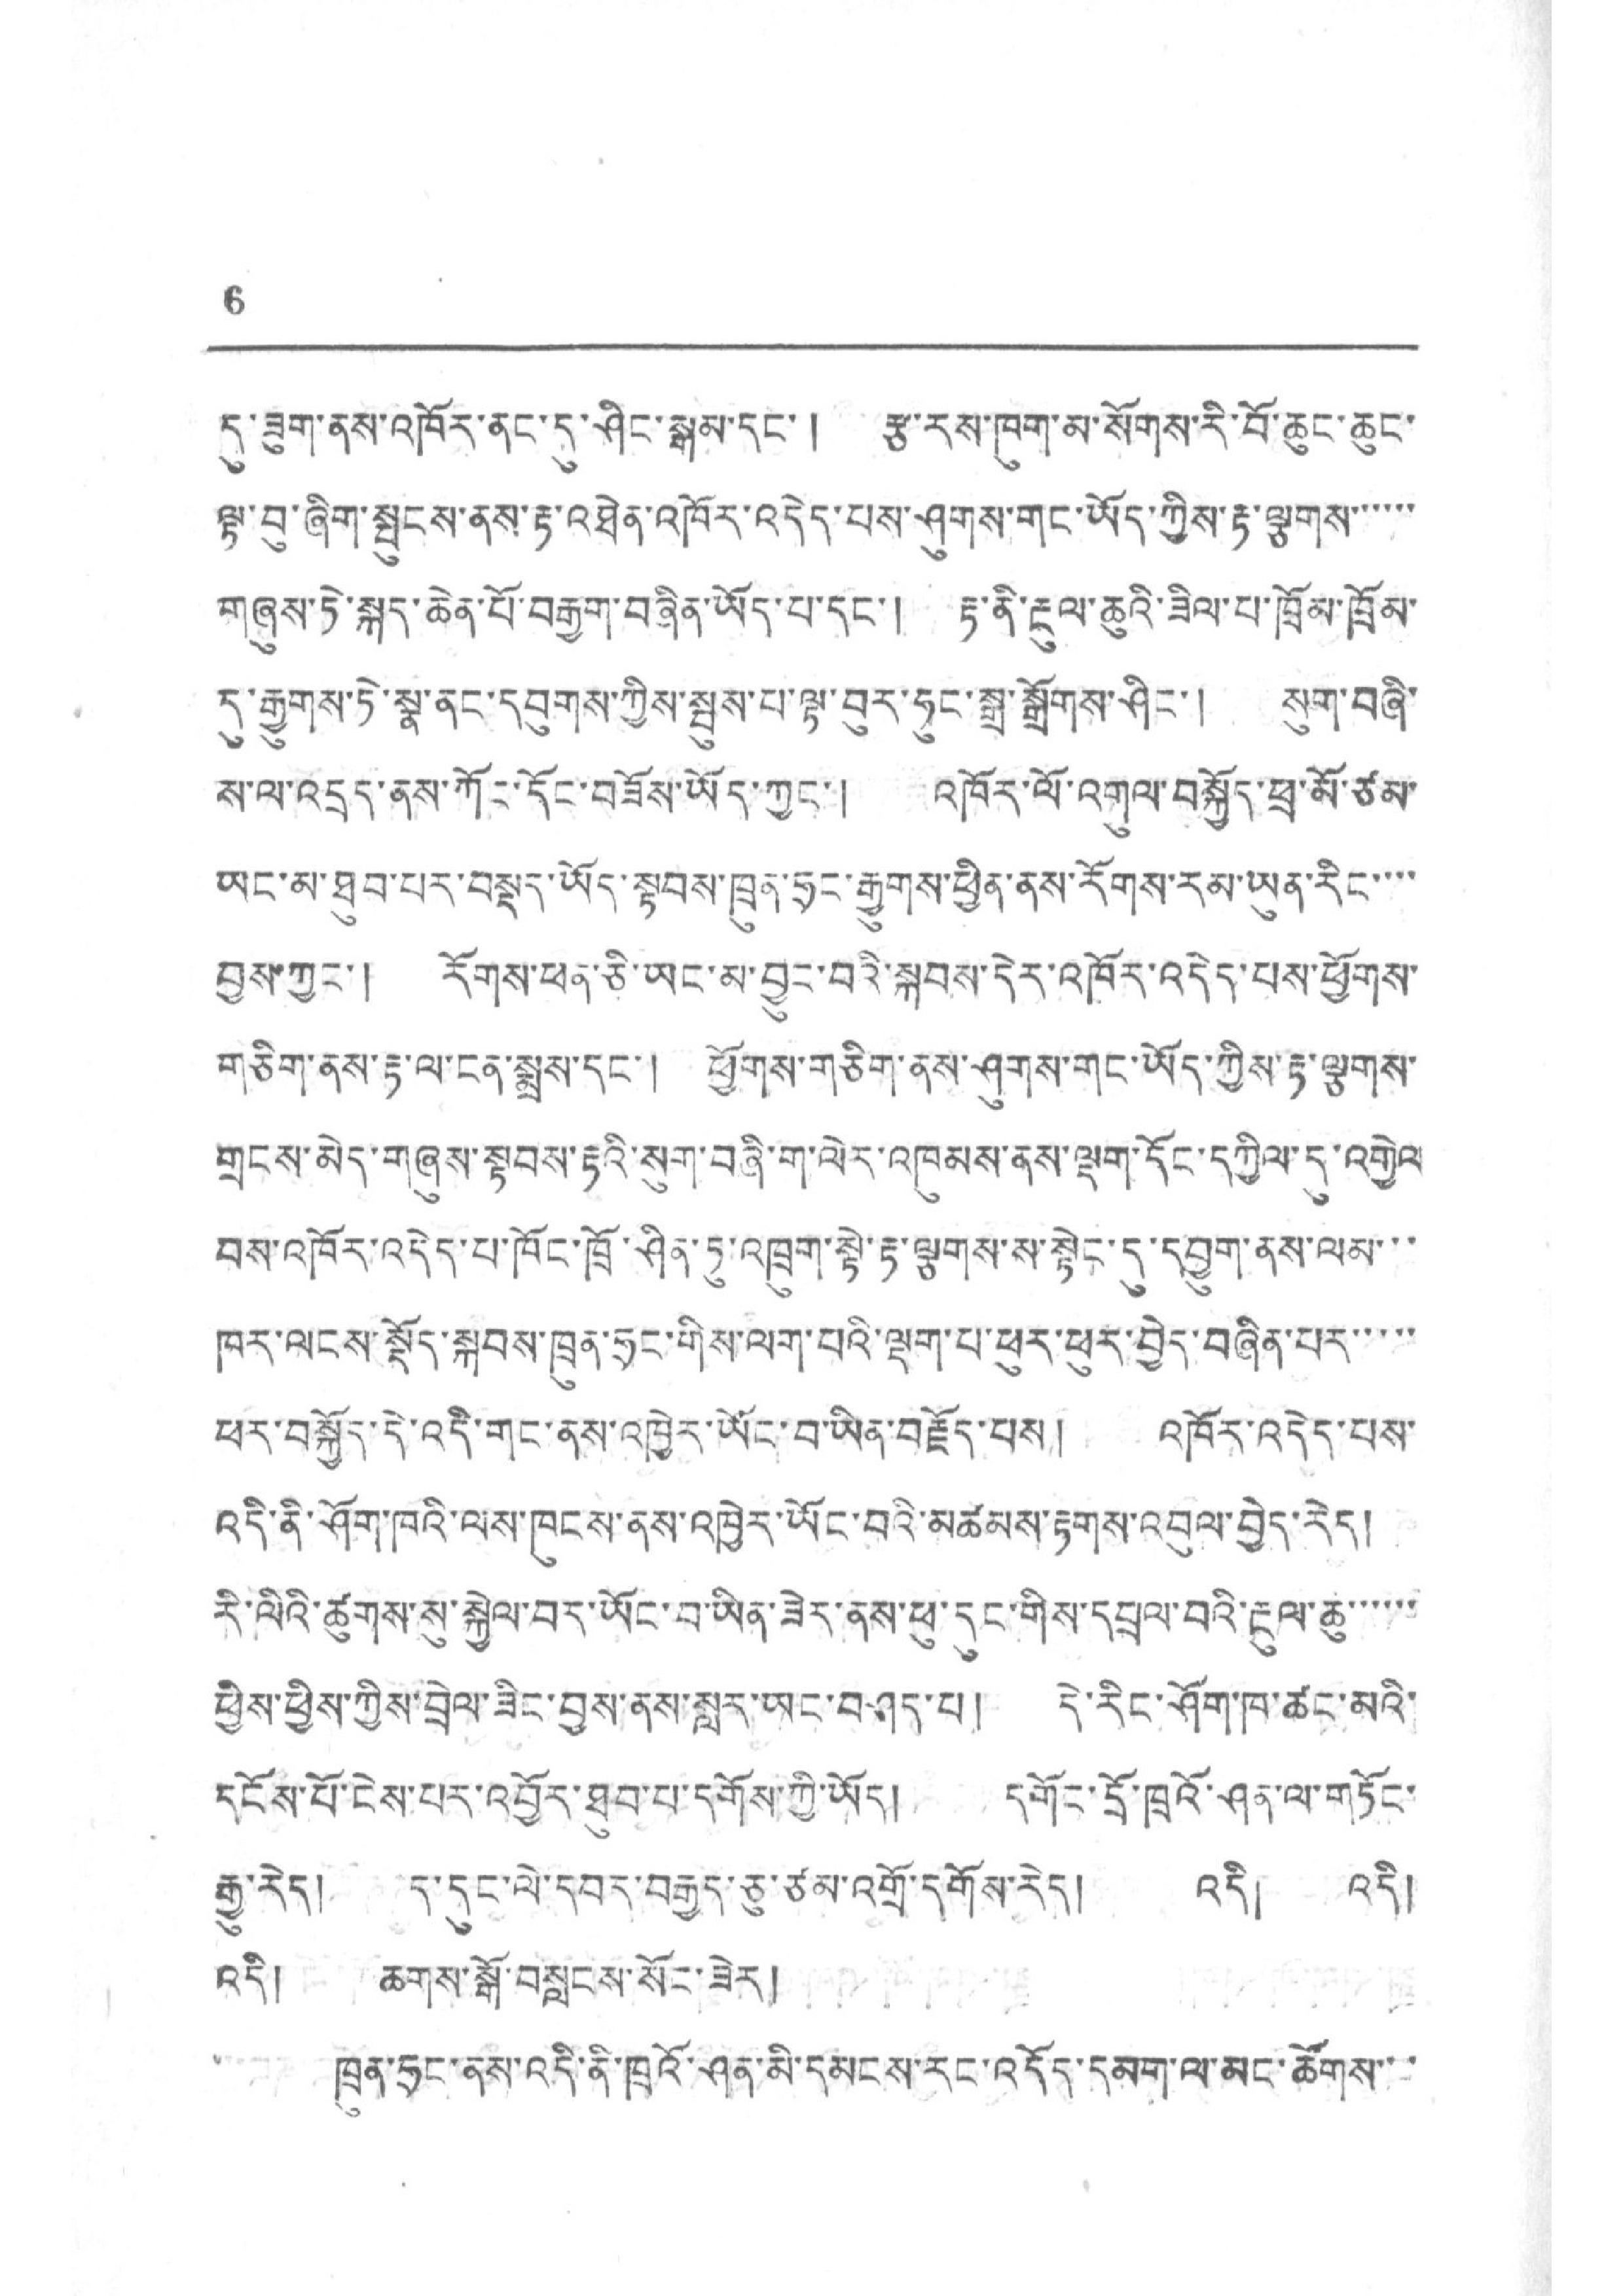6
དུ་ཟུག་ནས་འཁོར་ནང་དུ་ཤིང་སྒམ་དང་། རྩ་རས་ཁག་མ་སོགས་རི་བོ་ཆུང་ཆུང་
ལྟ་བུ་ཞིག་སྤུངས་ནས་རྟ་འཐེན་འཁོར་འདེད་པས་ཤུགས་གང་ཡོད་ཀྱིས་རྟ་ལྕགས་་་་་་
གཞུས་ཏེ་སྐད་ཆེན་པོ་བརྒྱག་བཞིན་ཡོད་པ་དང་། རྟ་ནི་རྔུལ་ཆུའི་ཟིལ་པ་ཁྲོམ་ཁྲོམ་
དུ་རྒྱུགས་ཏེ་སྣ་ནང་དབུགས་ཀྱིས་སྦུས་པ་ལྟ་བུར་ཧུང་སྒྲ་སྒྲོགས་ཤིང་། སུག་བཞི་
ས་ལ་འདྲད་ནས་ཀོང་དོང་བཟོས་ཡོད་ཀྱང་། འཁོར་ལོ་འགུལ་བསྐྱོད་ཕྲ་མོ་ཙམ་
ཡང་མ་ཐུབ་པར་བསྡུར་ཡོད་སྟབས་ཁྲུན་ཧྲང་རྒྱུགས་ཕྱིན་ནས་རོགས་རམ་ཡུན་རིང་་་་
བྱས་ཀྱང་། རོགས་ཕན་ཅི་ཡང་མ་བྱུང་བའི་སྐབས་དེར་འཁོར་འདེད་པས་ཕྱོགས་
གཅིག་ནས་རྟ་ལ་ངན་སྨྲས་དང་། ཕྱོགས་གཅིག་ནས་ཤུགས་གང་ཡོད་ཀྱིས་རྟ་ལྕགས་
གྲངས་མེད་གཞུས་སྟབས་རྟའི་སུག་བཞི་ག་ལེར་འཁུམས་ནས་ལྡག་དོང་དཀྱིལ་དུ་འགྱེལ་
བས་འཁོར་འདེད་པ་ཁོང་ཁྲོ་ཤིན་ཏུ་འཁྲུག་སྟེ་རྟ་ལྕགས་ས་སྟེང་དུ་དབྱུག་ནས་ལམ་་་
ཁར་ལངས་སྟོད་སྐབས་ཁྲུན་ཧྲང་གིས་ལག་བའི་ལྡག་པ་ཕུར་ཕུར་བྱེད་བཞིན་པར་་་་་
ཕར་བསྐྱོད་དེ་འདི་གང་ནས་འཁྱེར་ཡོང་བ་ཡིན་བརྗོད་པས། འཁོར་འདེད་པས་
འདི་ནི་ཤོག་ཁའི་ལས་ཁུངས་ནས་འཁྱེར་ཡོང་བའི་མཚམས་རྟགས་འབུལ་བྱེད་རེད།
རི་ལིའི་ཚུགས་སུ་སྐྱེལ་བར་ཡོང་བ་ཡིན་ཟེར་ནས་ཕུ་དུང་གིས་དཔྲལ་བའི་རྔུལ་ཆུ་་་་་་
ཕྱིས་ཕྱིས་ཀྱིས་བྲེལ་ཟིང་བྱས་ནས་སླར་ཡང་བཤད་པ། དེ་རིང་ཤོག་ཁ་ཚང་མའི་
དངོས་པོ་ངེས་པར་འབྱོར་ཐུབ་པ་དགོས་ཀྱི་ཡོད། དགོང་དྲོ་ཁྲའོ་ཤན་ལ་གཏོང་
རྒྱུ་རེད། ད་དུང་ལེ་དབར་བརྒྱད་ཅུ་ཙམ་འགྲོ་དགོས་རེད། འདི། འདི།
འདི། ཆགས་སྒོ་བསླངས་སོང་ཟེར།
ཁྲུན་ཧྲང་ནས་འདི་ནི་ཁྲའོ་ཤན་མི་དམངས་རང་འདོད་དམག་ལ་མང་ཚོགས་་་
